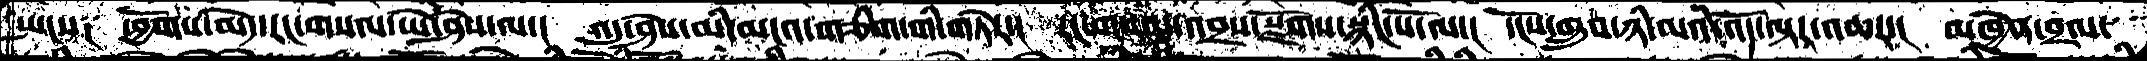སྤངས༑  ཕྱོགས་མེད་རང་གསལ་ཡེ་ཤེས་ལ་།  འདུ་ཤེས་མི་མངའ་གཅིག་གི་གཏེར་།  རང་གསལ་འབྲས་སྫོགས་སྙིང་པོ་ལ་།  དངོས་གྲུབ་ཉི་མའི་འོད་ལྟར་འཆར་།  མཁྱེན་བྲལ་
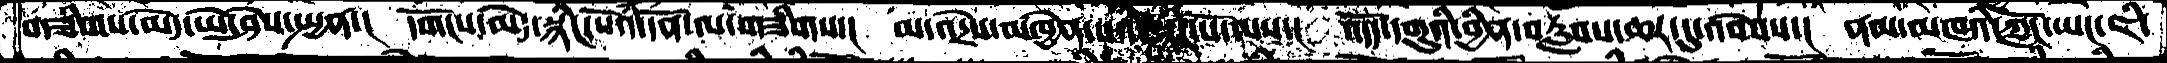གཟིགས་མེད་ཡེ་ཤེས་སྤྱན་།  དགོངས་མེད་སྙིང་པོའི་དོན་ལ་གཟིགས་། མ་འདྲེས་མཁྱེན་པའི་སྙིང་པོ་ལས་།  འདོད་དགུའི་བྱིན་བརླབས་ཆར་དུ་འབེབས་།  ནམ་མཁའི་ཀློང་ཡང་ཇི་
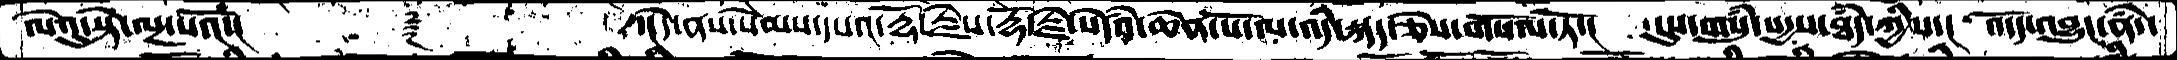ལེའུ་སྟེ་ལྔ་པའོ་།  ༈  ་།དེ་ནས་སེམས་དཔའ་རྡོ་རྗེས་རྡོ་རྗེ་སེདཾའ་ཆེན་པོ་ལ་འདི་སྐད་ཅེས་གསོལ་ཏོ་།  དུས་གསུཾ་སདྱས་ཐཾད་ཀྱིས་།  འདོད་འབྱུང་ནཾ་
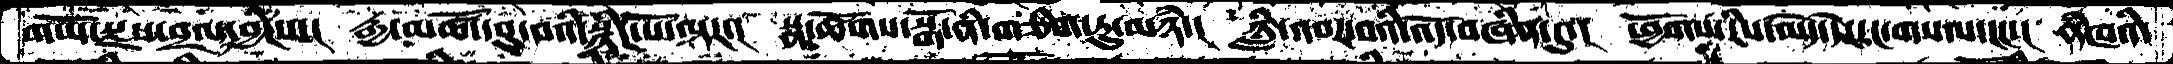གཡོ་སྫས་བྲལ་དབྱིངས་།  རྒྱ་མཚོ་བུ་བའི་སྙིང་པོ་ལྟར་།  སྣ་ཚོགས་སྒོ་ནི་གཅིག་ཏུ་མཉཾ་།  ཉླི་འབར་བའི་འོད་བཞིན་དུ་།  ཕྱོགས་རིས་མེད་དེ་རང་གསལ་ངང་།  ནཾཁའི་
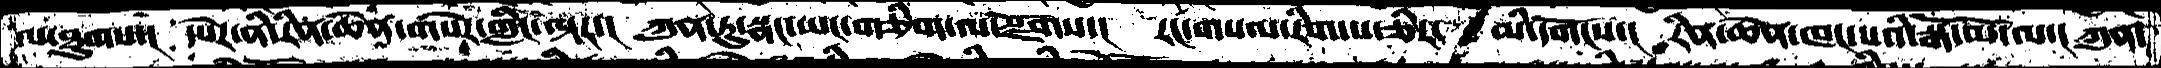ལ་ཐུགས་།  དཔེར་ནི་རིན་ཆེན་གསེར་གླིང་ལྟར་།  ཀུན་ཏུ་སྣང་ཡང་གཅིག་ལ་སྫོགས་།  རང་གསལ་རིག་པ་ཅིར་  མི་དགོངས་།  རིན་ཆེན་ཁང་པའི་སྒོ་མོ་ལ་། ཀུན་
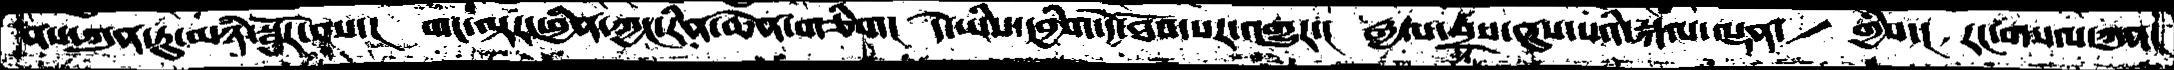ནས་ཀུན་ཏུ་མཉཾ་སྦྱོར་བས་།  གང་ལྟར་ཕྱིན་ཀྱང་རིན་ཆེན་གཅིག།  དེ་ཡིས་དབྱིག་དེ་ཐོབ་པར་འགྱུར་།  རྒྱལ་སྲས་ནུས་པའི་སྐལ་ལྡན་  གྱིས་།  རང་གསལ་ཀུན་
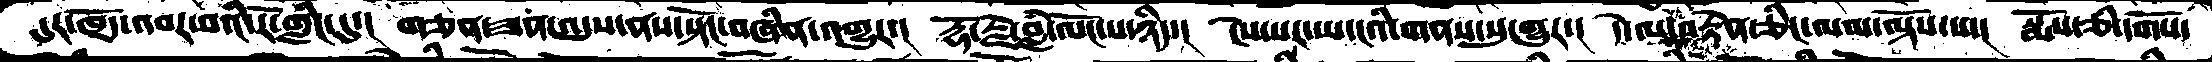དུར་ཁྲོད་འབར་བའི་རོ་གླིང་དུ་།  གཅན་ཟན་འདུས་ནས་སྟོང་བཞིན་འགྱུར་།  རྡོ་རྗེ་བླཾ་ལོང་པ་ཉིད་།  ངེས་པར་ཡ་ངའི་གནས་སུ་གྱུར་།  དེ་ལ་བརྟེན་ཅིང་ལམ་ལྟོས་པ་།  སྨོས་ཅི་དགོས་
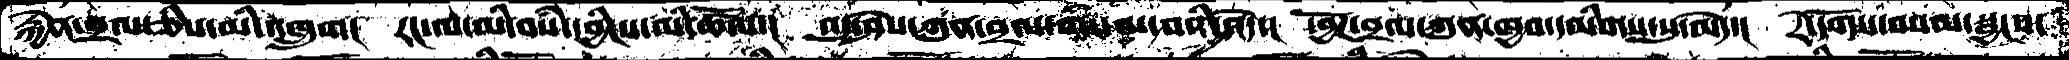རྐོན་བྲལ་ཅིས་མི་འཁྲུག།  རང་ལ་མི་བསཾ་དབྱིངས་མི་ཚོལ་།  འདུ་ཤེས་ཀུན་བྲལ་གསལ་བའི་ཤོད་།  ཕྱོཌ་བྲལ་ཀུན་ཁྱབ་དམིགས་སུ་མེད་།  རེ་དོགས་བསམ་སྦྱངས་
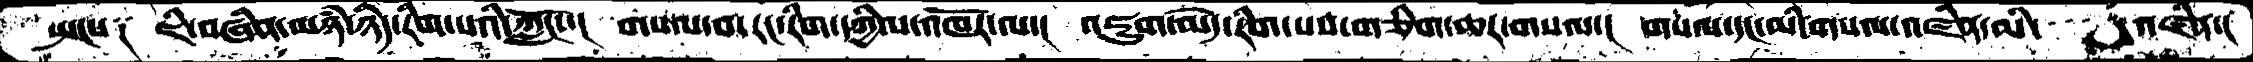སྤངས༑  ཇི་བཞིན་མཉཾ་ཉིད་རིག་པའི་ཀློང་་།  གསལ་བ་རང་རིག་དཀྱིལ་འཁོར་ལ་།  འཇུག་མེད་རིག་པས་གཅིག་ཆར་གསལ་།  གསལ་དང་མི་གསལ་འཛིན་མི་་་ འཛིན་།
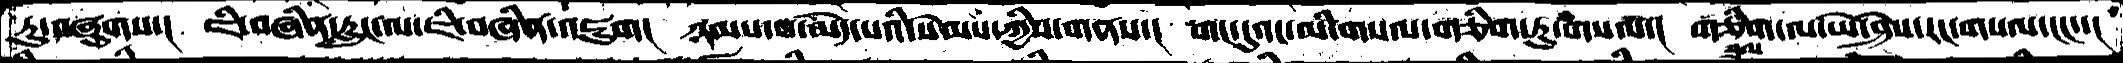ཏུ་བཞུགས་།  ཇི་བཞིན་རླུང་ལ་ཇི་བཞིན་འཇུག།  ཉམས་པ་མེད་པའི་སེམས་ཀྱིས་གནས་།  གང་དུའང་མི་གསལ་གཅིག་ཏུ་གསལ་།  གཅིག་ལ་ཡེ་ཤེས་རང་གསལ་ངང་་།
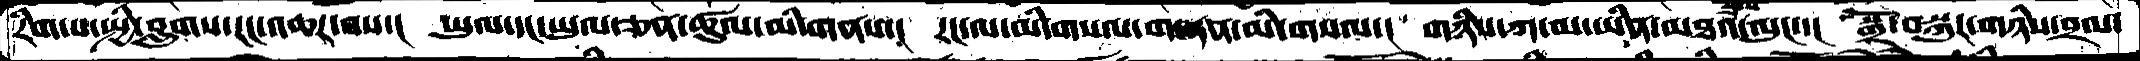རིག་པ་སྤྱི་བླུགས་ངང་འཆར་བས་།  ཡུལ་དང་ཡུལ་ཅན་ཚུལ་མི་གནས་།  རང་ལ་མི་གསལ་གཞན་མི་གསལ་།  གཉིས་ཀ་མ་ཡིན་མཐའ་བྲལ་ལུང་།  སྒྲོ་བསྐུར་གཉིས་བྲལ་
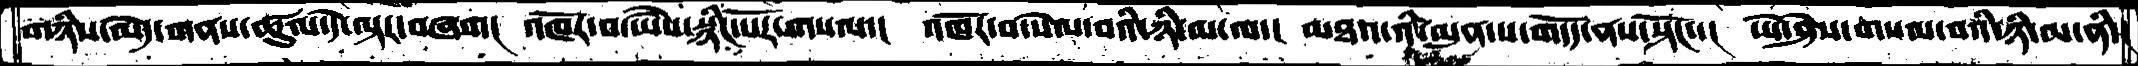གཉིས་མེད་གནས་ཚུལ་དེ་ལྟར་བཞག།  འཁོར་བ་ཡཻས་སྙིང་པོར་གསལ་།  འཁོར་བ་སེལ་བའི་ཉི་མ་ལ་།  མཐའ་འི་མུན་པ་གདོད་ན་སྟོང་་།  ཡེ་ཤེས་གསལ་བའི་ཉི་མ་ནི་།
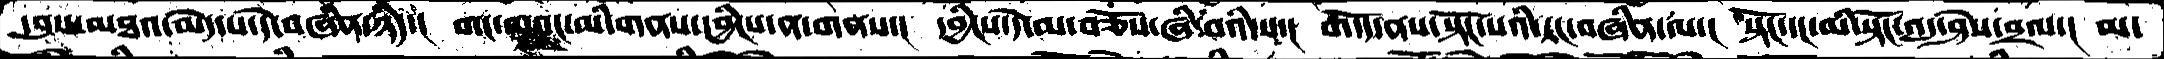དབུས་མཐའ་མེེད་པ་དེ་བཞིན་ཉིད་།  གང་ལའང་མི་གནས་དབྱིངས་ན་གནས་།  དབྱིངས་དེ་མ་བཅོས་ཞི་བའི་ས་།  གདོད་ནས་སྟོང་པའི་རང་བཞིན་ལ་།  སྟོང་དང་མི་སྟོང་འདུ་ཤེས་བྲལ་། མ་
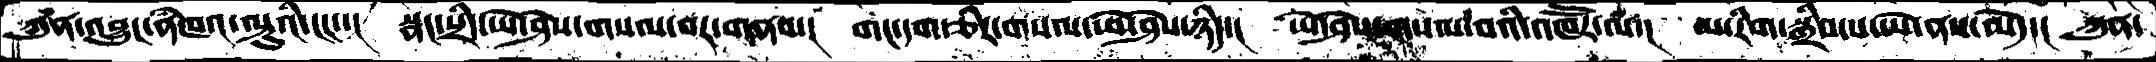ཀུན་འབྱུང་ནཾཁའ་ལྟུའི་ངང་་།  སྣང་སྲིད་ཡེ་ཤེས་གསལ་བར་གནས་།  གང་དག་ཅིར་གསལ་ཡེ་ཤེས་ཉིད་།  ཡེ་ཤེས་གསལ་བའི་འཁཽར་ལ་།  མ་རིག་སྒྲིབ་པ་ཡེ་ནས་མེད་།  ཀུན་
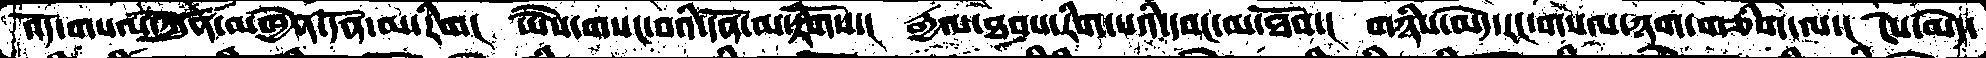འདོ་གསལ་ཀུན་མཁྱེན་དོན་མ་རིག།།  ཡཻས་གསང་བའི་དོན་མ་རྟོགས་།  རྒྱལ་ཐབས་རིག་པའི་དབང་མ་ཐོབ་།  གཉིས་མེད་རང་གསལ་ཉག་གཅིག་ལ་།  ངེས་མེད་
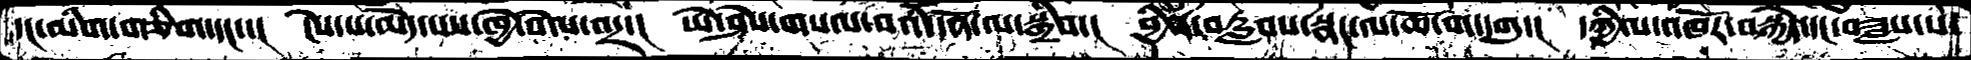དང་མིག་གཅིག་དང་་།  ངེས་པ་མེད་པས་ཁྱེ་བེལ་འདྲ་།  ཡེ་ཤེས་གསལ་བའི་དོན་ལ་སྒྲིབ་།  བྱིན་བརླབས་སྣང་ལ་ཆོ་ག་དགུ་།  དཀྱིལ་འཁོར་བསྐྱེད་དང་བཟླས་པ་
